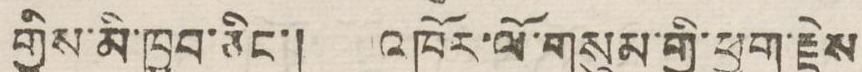གྱིས་མི་ཁྱབ་ཅིང་། འཁོར་ལོ་གསུམ་གྱི་ཕྱག་རྗེས
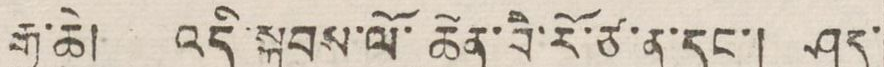རྒྱ་ཆེ། འདི་སྐབས་ལོ་ཆེན་བཻ་རོ་ཙ་ན་དང་། ཤུད་
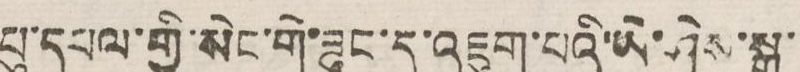པུ་དཔལ་གྱི་སེང་གེ་ཟུང་དུ་འཇུག་པའི་ཡེ་ཤེས་སྒྱུ་
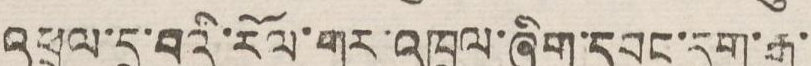འཕྲུག་དྲ་བའི་རོལ་གར་འཁྲུལ་ཞིག་དབང་དྲག་རྒྱ་
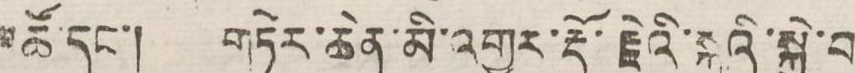མཚོ་དང་། གཏེར་ཆེན་མི་འགྱུར་རྡོ་རྗེའི་སྐུའི་སྐྱེ་བ
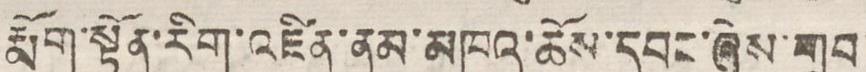རྨོག་སྟོན་རིག་འཛིན་ནམ་མཁའ་ཆོས་དབང་ཞེས་གྲུབ
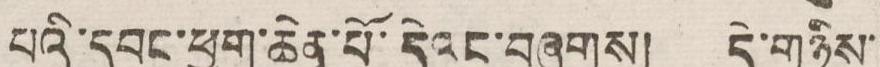པའི་དབང་ཕྱུག་ཆེན་པོ་དེའང་བཞུགས། དེ་གཉིས་
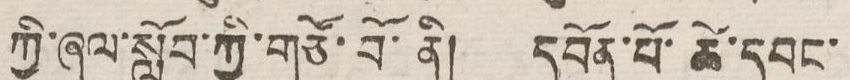ཀྱི་ཞལ་སློབ་ཀྱི་གཙོ་བོ་ནི། དབོན་པོ་ཚེ་དབང་
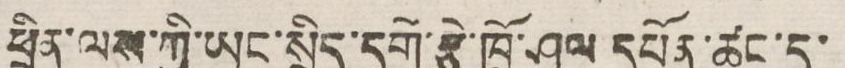ཕྲིན་ལས་ཀྱི་ཡང་སྲིད་དགེ་རྩེ་ཁྲོ་ཤུལ་དཔོན་ཚང་དུ་
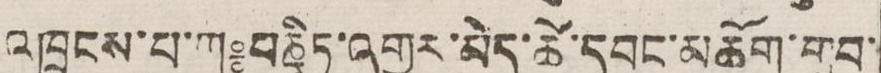འཁྲུངས་པ་ཀ༔པཎྜིཏ་འགྱུར་མེད་ཚེ་དབང་མཆོག་གྲུབ་
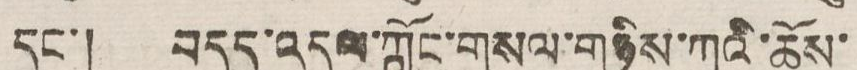དང་། བདུད་འདུལ་ཀློང་གསལ་གཉིས་ཀའི་ཆོས་
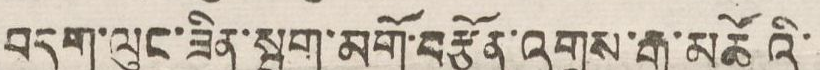བདག་ལུང་ཟིན་སྦྲག་མགོ་བཙོན་འགྲུས་རྒྱ་མཚོའི་
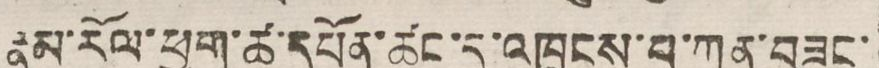རྣམ་རོལ་ཕྱག་ཚ་དཔོན་ཚང་དུ་འཁྲུངས་པ་ཀུན་བཟང་
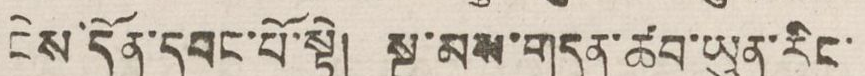ངེས་དོན་དབང་པོ་སྟེ། སྔ་མས་གདན་ཚབ་ཡུལ་རིང་
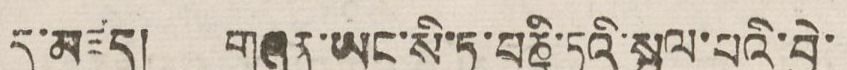དུ་མཛད། གཞན་ཡང་སོ་ཏུ་པཎྜི་ཏའི་སྤྲུལ་བའི་བྱེ་
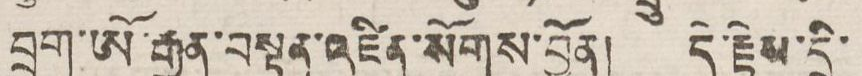བྲག་ཨོ་རྒྱན་བསྟན་འཛིན་སོགས་བྱོན། དེ་རྗེས་དྲི་
